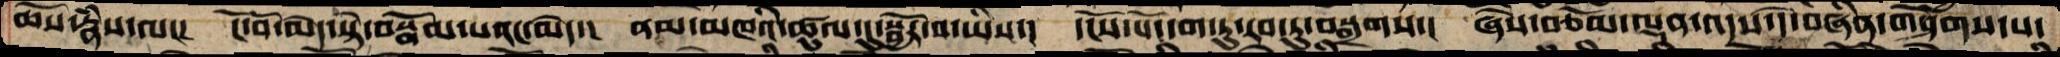ཆོས་རྣཾས་ལ་།  ངོ་བོ་མེད་སྟེ་བསྒོམ་པའང་མེད་།  ནམ་མཁའི་ཚུལ་དུ་སྦྱོར་བ་ཡིས་།  དངོས་པོ་དག་ཏུ་རབ་ཏུ་བསྒྲགས་།  ཞེས་བཅོམ་ལྡན་འདས་དེ་བཞིན་གཤེགས་པ་
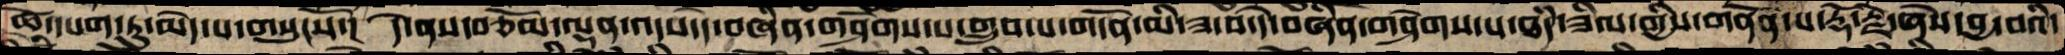ཚེ་དཔག་ཏུ་མེད་པ་གསུངསོ་།  དེ་ནས་བཅོམ་ལྡན་འདས་དེ་བཞིན་གཤེགས་པ་གྲུབ་པ་གདོན་མི་ཟ་བ་དེ་བཞིན་གཤེགས་པ་ཐཾད་ཟིལ་གྱིས་གནོན་པ་རྡོ་རྗེ་ཞེས་བྱ་བའི་
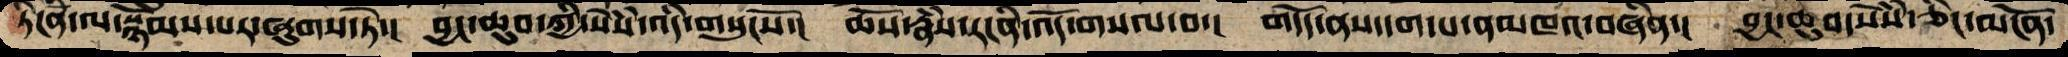ཏིངཛིན་ལ་སྙོམས་པར་ཞུགས་ཏེ་།  བྱང་ཆུབ་ཀྱི་སེཾས་འདི་གསུངསོ་།  ཆོས་རྣཾས་རངིན་འོད་གསལ་བ་།  གདོད་ནས་དག་པ་ནམ་མཁའ་བཞིན་།  བྱང་ཆུབ་སེཾས་ཅིང་མངོན་
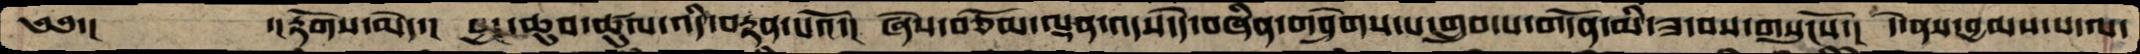༄༅་།       ་།རྟོགས་མེད་།   བྱང་ཆུབ་ཚུལ་འདི་བརྟན་པའོ་།  ཞེས་བཅོམ་ལྡན་འདས་དེ་བཞིན་གཤེགས་པ་གྲུབ་པ་གདོན་མི་ཟ་བས་གསུངསོ་།  དེ་ནས་བྱམས་པ་ལ་
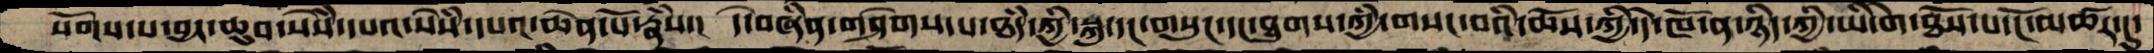སོགས་པ་བྱང་ཆུབ་སེཾས་དཔའ་སེཾས་དཔའ་ཆེན་པོ་རྣཾས་།  དེ་བཞིན་གཤེགས་པ་ཐཾད་ཀྱི་སྐུ་དང་གསུང་དང་ཐུགས་ཀྱི་གསང་བའི་ཆོས་ཀྱི་དེ་ཁོ་ན་ཉིད་ཀྱི་ཡི་གེ་ཐོས་པ་ངོ་མཚར་དུ་
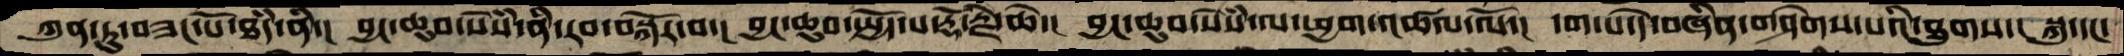ཀུན་ཏུ་བཟང་པོཐཾད་ནི་།  བྱང་ཆུབ་སེཾས་ནི་རབ་བསྐོར་བ་།  བྱང་ཆུབ་སྤྱོད་པ་རྡོ་རྗེ་ཆེ་།  བྱང་ཆུབ་སེཾས་ལ་ཕྱག་འཚལ་ལོ་། དག་པ་དེ་བཞིན་གཤེགས་པའི་ཐུགས་།  སྐུ་དང་
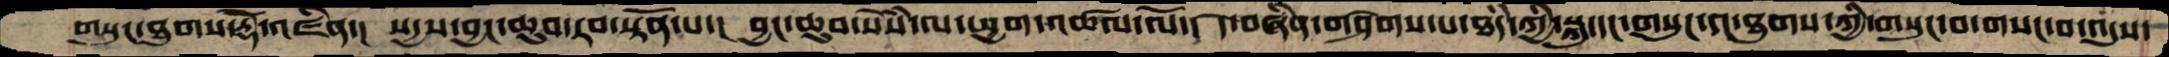གསུང་ཐུགས་རྡོེ་འཛིན་།  སདྱས་བྱང་ཆུབ་རབ་སྟོན་པ་།  བྱང་ཆུབ་སེཾས་ལ་ཕྱག་འཚལ་ལོ་།  དེ་བཞིན་གཤེགས་པ་ཐཾད་ཀྱི་སྐུ་དང་གསུང་དང་ཐུགས་ཀྱི་གསུང་བ་གསང་བ་འདུས་
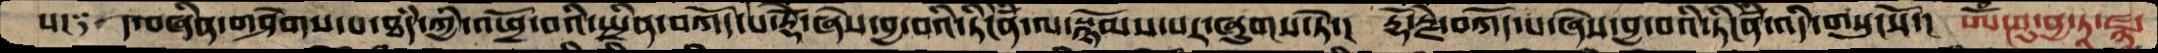པ༑  ད་བཞིན་གཤེགས་པ་ཐཾད་ཀྱི་འཕྲོ་བའི་སྤྲིན་བཀོད་པ་རྡོེ་ཞེས་བྱ་བའི་ཏིངེཛིན་ལ་སྙོམས་པར་ཞུགས་ཏེ་།  རྡོ་རྗེ་བཀོད་པ་ཞེས་བྱ་བའི་ཏིངེཛིན་འདི་གསུངསོ་།  ཨོཾ་དབུ་ནྱ་ཏཱ་ཛྙ
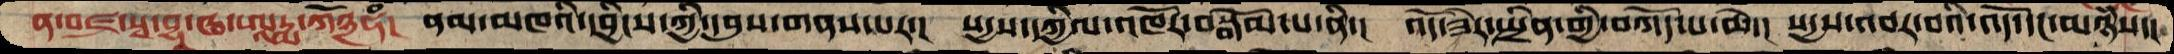ན་བཛྲ་སྭ་བྷ་ཝ་ཨཱརྨ་ཀོ྅ཧཾ།  ནམ་མཁའི་དབྱིངས་ཀྱི་དབུས་གནས་པར་།  སདྱས་དཀྱིལ་འཁོར་བསྒོམ་པ་ནི་།  འོད་ཟེར་སྤྲིན་གྱི་བཀོད་པ་ཆེ་།  སདྱས་འབར་བའི་འོད་དང་མཉཾས་།
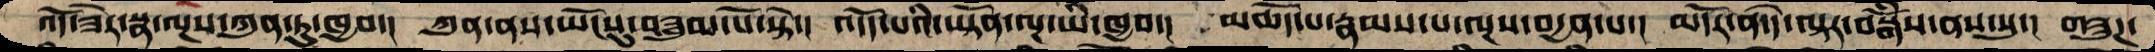འོད་ཟེར་སྣ་ལྔས་ཀུན་ཏུ་ཁྱབ་།  ཀུན་ནས་ཡོངསུ་བཟུམ་པོ་སྟེ་།  འདོད་པའི་ཡྟོན་ལྔ་ཡི་ཁྱབ་།  མཆོད་པ་རྣམས་པ་ལྔས་བདྱན་པ་།  མདོར་ན་དེ་ལྟར་བསྒོཾས་ནས་སུ་།  གཟུཌ་
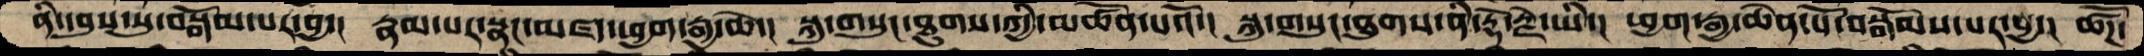ནི་དབུས་སུ་བསྒོམ་པར་བྱ་།  རྣམ་པར་སྣང་མཛད་ཕྱག་རྒྱ་ཆེ་།  སྐུ་གསུང་ཐུགས་ཀྱི་མཚོན་པའོ་།  སྐུ་གསུང་ཐུགས་ནི་རྡོ་རྗེ་ཡི་།  ཕྱག་རྒྱ་ཆེན་པོ་བསྒོམས་པར་བྱ་།  ཚོཌ་
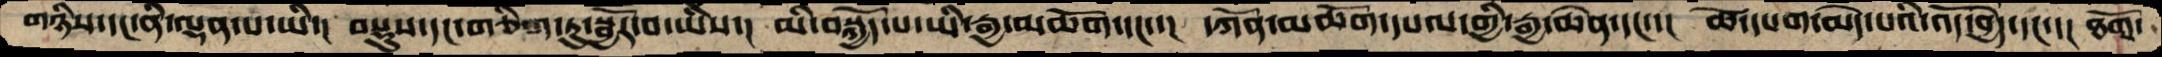གཉིས་དང་ནི་ལྡན་པ་ཡི་།  བསྡུས་དང་གཅིག་ཏུ་སྦྱོར་བ་ཡིས་།  མི་བསྐྱོད་པ་ཡི་རྒྱ་མཆོག་དང་་།  དཀོན་མཆོག་དཔལ་གྱི་རྒྱ་ཆེན་དང་་།  ཚེ་དཔག་མེད་པའི་འོད་བྱེད་དང་་།  ཐོག་
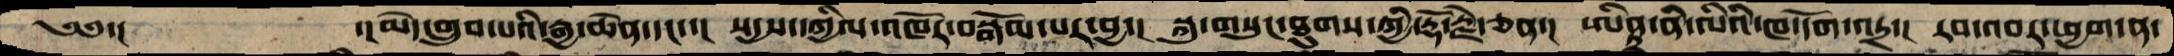༄༅་།   ་།མེད་གྲུབ་པའི་རྒྱ་ཆེན་དང་་།  སདྱས་དཀྱིལ་འཁོར་བསྒོམ་པར་བྱ་།  སྐུ་གསུང་ཐུགས་ཀྱི་རྡོ་རྗེ་ཅན་།  ཨིནྟྲ་ནི་ལིའི་ཁ་དོག་འདྲ་།  རབ་འབར་ཕྱག་ན་
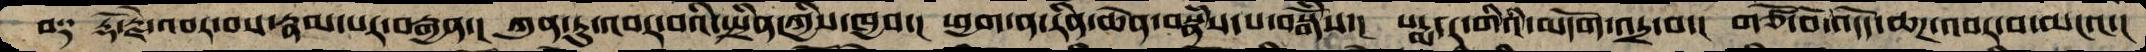བ༑  རྡོ་རྗེ་འབར་བས་རྣམ་པར་བརྒྱན་།  ཀུན་ཏུ་འབར་བའི་སྤྲིན་ཀྱིས་ཁྱབ་།  ཕྱག་ན་རིན་ཆེན་བསྣཾས་པ་བསྒོཾས་།  པདྨ་ར་གིའི་མདོག་འདྲ་བ་།  གཙོ་བོ་འདོད་ཆཌ་འབར་བ་མངའ་།
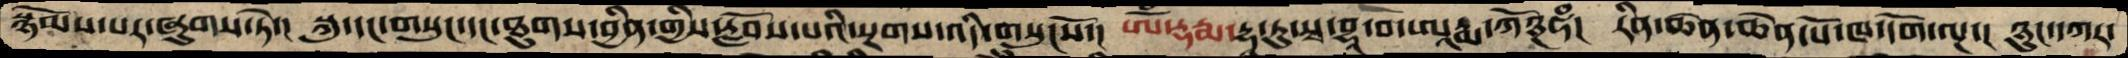སྙོམས་པར་ཞུགས་ཏེ་།  སྐུ་དང་གསུང་དང་ཐུགས་བྱིན་གྱིས་རློབས་པའི་སྔགས་འདི་གསུངསོ་།  ཨོཾ་དྷརྨ་དྷ་ཏུ་སྭ་བྷཱ་བ་ཨཱརྨ་ཀོ྅ཧཾ།  རིན་ཆེན་ཆེན་པོ་ཁ་དོག་ལྔ་།  ཉུང་དཀར་
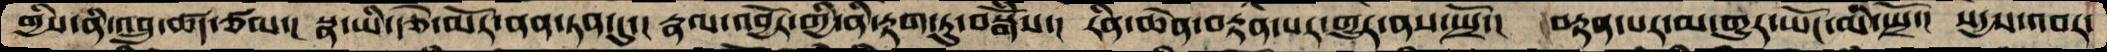གྱིས་ནི་འབྲུ་ཚད་ཙམ་།  སྣ་ཡི་རྩེ་མོར་ནན་ཏན་དུ་།  སྣལ་འབྱོར་གྱི་ནི་རྟག་ཏུ་བསྒོཾས་།  རིན་ཆེན་བརྟན་པར་གྱུར་ནས་སྤྲོ་།  བརྟན་པར་མ་གྱུར་ཡོང་མི་སྤྲོ་།  སདྱས་འབར་
